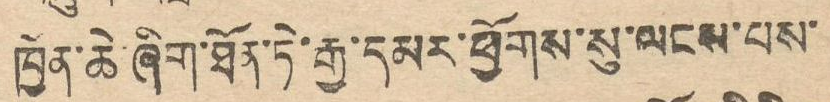ཁྱོན་ཆེ་ཞིག་ཐོན་ཏེ་རྒྱ་དམར་ཕྱོགས་སུ་ལངས་པས་
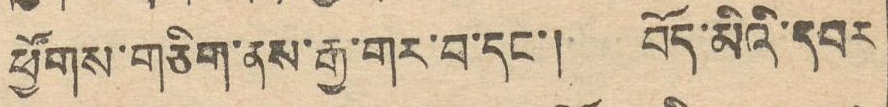ཕྱོགས་གཅིག་ནས་རྒྱ་གར་བ་དང་། བོད་མིའི་དབར
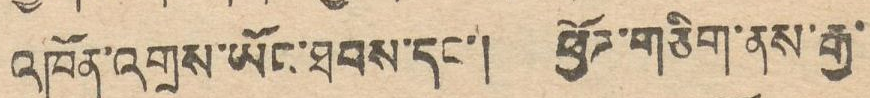འཁོན་འགྲས་ཡོང་ཐབས་དང་། ཕྱོཊ་གཅིག་ནས་རྒྱ་
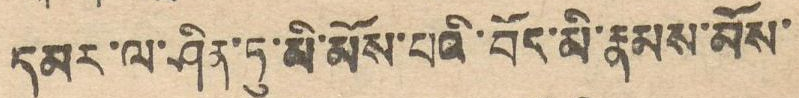དམར་ལ་ཤིན་ཏུ་མི་མོས་པའི་བོད་མི་རྣམས་མོས་
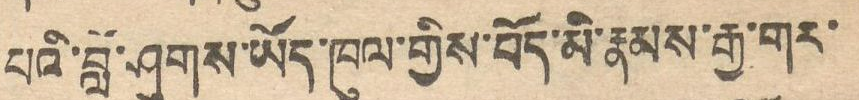པའི་བློ་ཤུགས་ཡོད་ཁུལ་གྱིས་བོད་མི་རྣམས་རྒྱ་གར་
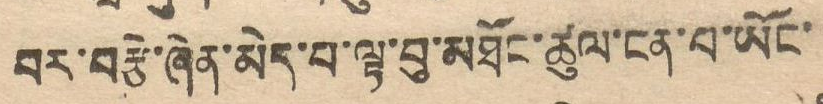བར་བརྩེ་ཞེན་མེད་པ་ལྟ་བུ་མཐོང་ཚུལ་ངན་པ་ཡོང་
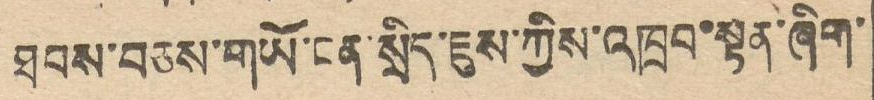ཐབས་བཅས་གཡོ་ངན་སྲིད་ཇུས་ཀྱིས་འཁྲབ་སྟན་ཞིག་
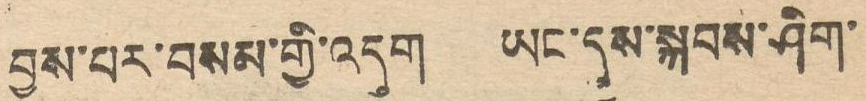བྱས་པར་བསམ་གྱི་འདུག ཡང་དུས་སྐབས་ཤིག་
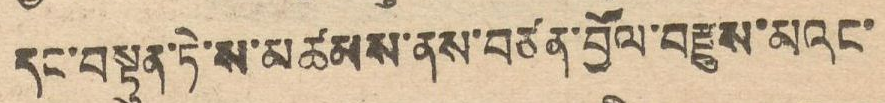དང་བསྟུན་ཏེ་ས་མཚམས་ནས་བཙན་བྱོལ་བརྫུས་མའང་
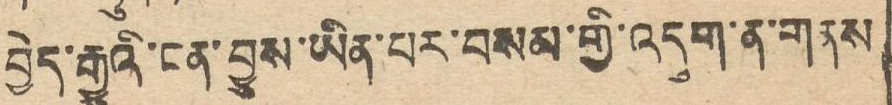བྱེད་རྒྱུའི་ངན་བྱུས་ཡིན་པར་བསམ་གྱི་འདུག་ན་གནས
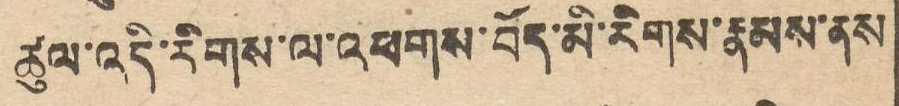ཚུལ་འདི་རིགས་ལ་འཕགས་བོད་མི་རིགས་རྣམས་ནས
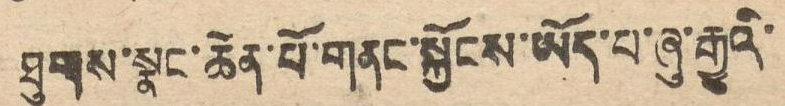ཐུགས་སྣང་ཆེན་པོ་གནང་སྐྱོངས་ཡོད་པ་ཞུ་རྒྱུའི་
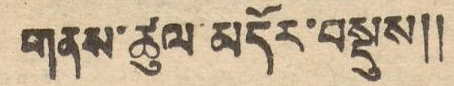གནས་ཚུལ་མདོར་བསྡུས།།
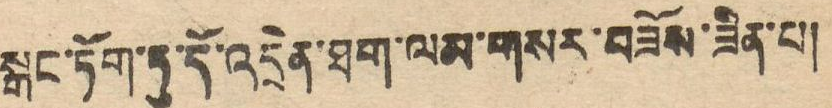སྒང་ཏོག་ཏུ་དོ་འདྲེན་ཐག་ལམ་གསར་བཟོས་ཟིན་པ།
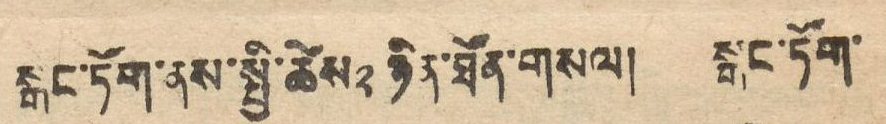སྒང་ཏོག་ནས་སྤྱི་ཚེས་ ༢ ཉིན་ཐོན་གསལ། སྒང་ཏོག་
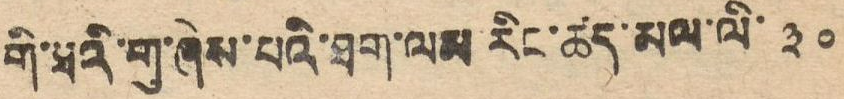གི་ཐའི་གུ་ཞེས་པའི་ཐག་ལམ་རིང་ཚད་མལ་ལི་ ༣༠
